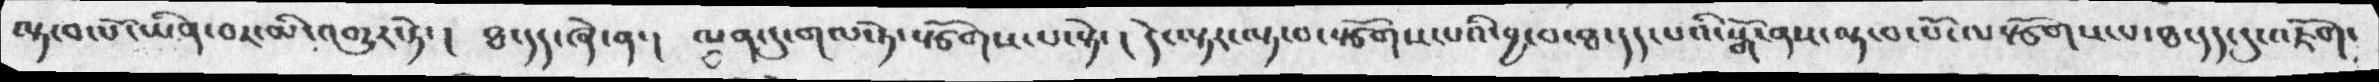ལྟ་བ་པོ་ཡིན་བར་མི་འགྱུར་ཏེ་། ཐ་དད་ཞེ་ན་། ལན་དུ་གལ་ཏེ་སྩོགས་པ་སྟེ་། དེ་ལྟར་ལྟ་བ་སྩོགས་པའི་བྱ་བ་ཐ་དད་པའི་སྒོ་ནས་ལྟ་བ་པོ་ལསྩོགས་པ་ཐ་དད་དུ་འཇོག་
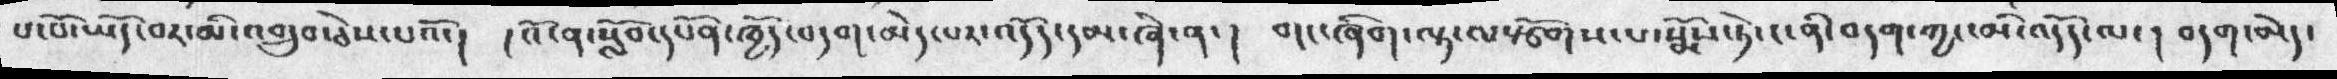པ་བོཡོད་བར་མི་འགྲུབ་ཅེས་པའོ་།  །འོ་ན་སློབ་དཔོན་ཁྱོད་བདག་མེད་པར་འདོད་དམ་ཞེ་ན་།  གང་ཞིག་ལྟ་ལསྩོགས་པ་སྨོས་ཏེ་ང་ནི་བདག་ཀྱང་མི་འདོད་ལ་། བདག་མེད་
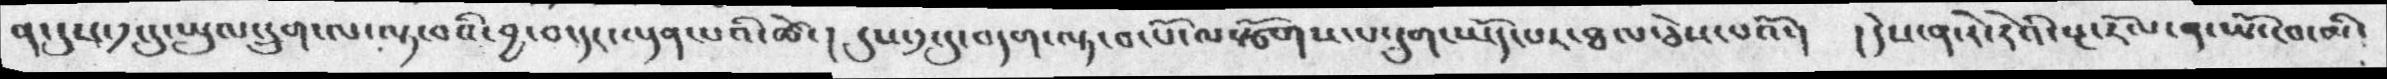ན་དུས་༡་དུ་ཡུལ་དྲུག་ལ་ལྟ་བའི་བྱ་བ་དང་ལྡན་པའི་ཚེ་།  དུས་༡་དུ་བདག་ལྟ་བ་པོ་ལསྩོགས་པ་དྲུག་ཡོད་པར་ཐལ་ཅེས་པའོ་།  །དེས་ན་རེ་རེའི་སྔ་རོལ་ན་ཡོང་བ་མི་
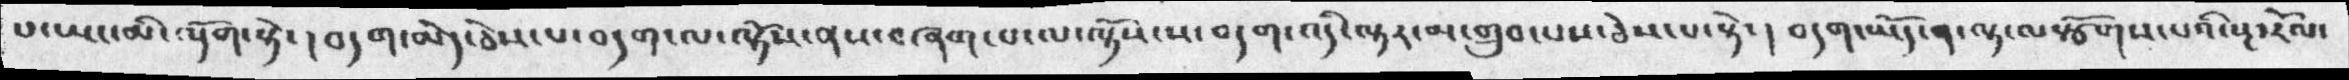པ་ཡང་མི་ལྡོག་སྟེ་། བདག་མེད་ཅེས་པ་བདག་ལ་ལྟོས་ནས་བཞག་པ་ལ་ལྟོས་ས་བདག་འདི་ལྟར་མ་གྲུབ་པས་ཅེས་པ་སྟེ་། བདག་ཡོད་ན་ལྟ་ལསྩོགས་པའི་སྔ་རོལ་
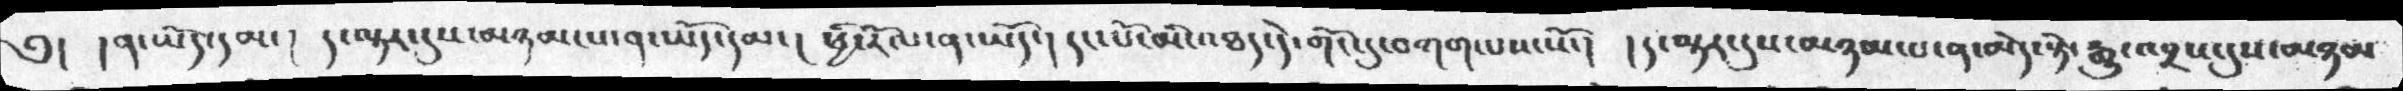༅། །ན་ཡོད་དམ་། ད་ལྟར་དུས་མཉམ་པ་ན་ཡོད་དམ་། ཕྱི་རོལ་ན་ཡོད་། དང་པོ་མི་འཐད་དེ་གོང་དུ་བཀག་པས་སོ་། །ད་ལྟར་དུས་མཉམ་པ་ན་མེད་སྟེ་རྒྱུ་འབྲས་དུས་མཉམ
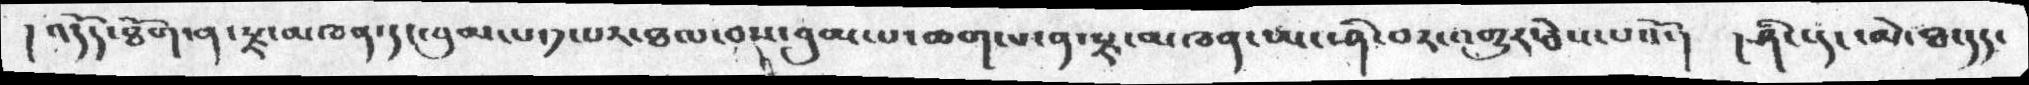།འདོད་ཐོག་ན་རྫ་མཁན་དང་བུམ་པ་༡་པར་ཐལ་བས་བུམ་པ་ཆག་པ་ན་རྫ་མཁན་ཡང་ཤི་བར་འགྱུར་ཅེས་པའོ་།  །ཤིང་དང་མེ་ཐ་དད་
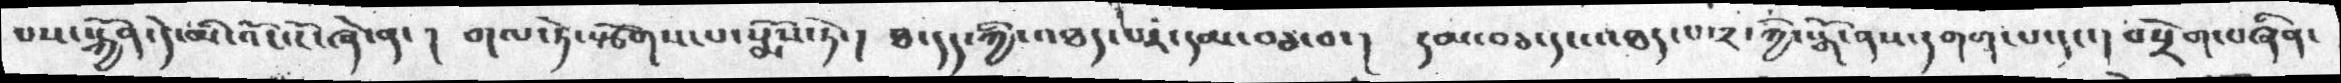པས་སྐྱོན་དེ་མི་འོང་ངོ་ཞེ་ན་།  གལ་ཏེ་སྩོགས་པ་སྨོས་ཏེ་།  ཐ་དད་ཀྱི་འཐད་པར་དམ་བཅ་བ་།  དམ་བཅ་དང་འཐད་པ་༢་ཀྱི་སྒོ་ནས་དགག་པ་དང་། བསྲེག་བཞིན་
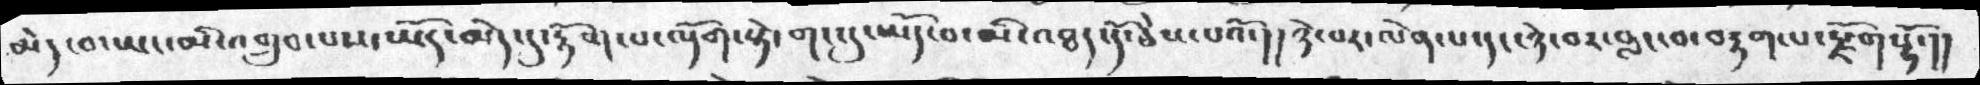མེད་བ་ཡང་མི་འགྲུབ་པས་ཡོད་མེད་དུ་རྟོག་པ་ལྡོག་སྟེ་གང་དུ་ཡོད་བ་མི་འཐད་དོ་ཅེས་པའོ་། །ཉེ་བར་ལེན་པ་དང་ཉེ་བར་བླང་བ་བརྟག་པ་རྫོགསྷོ་།།
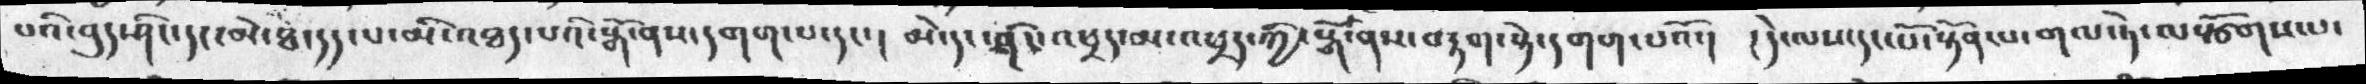པའི་བུད་ཤིང་དང་མེ་ཐ་དད་པ་མི་འཐད་པའི་སྒོ་ནས་དགག་པ་དང་།  མེ་དང་ཤིང་འཕྲད་མ་འཕྲད་ཀྱི་སྒོ་ནས་བརྟག་སྟེ་དགག་པའོ་།  །དེ་ལས་དང་པོ་སྟོན་པ་གལ་ཏེ་ལསྩོགས་པ་
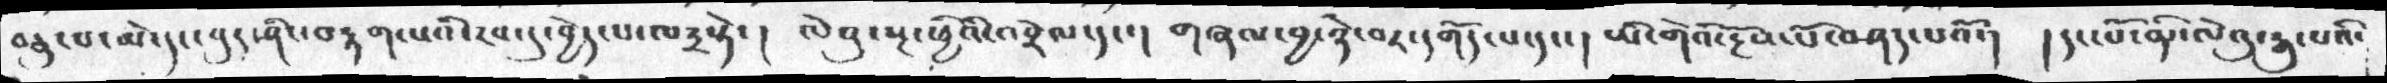བཅུ་པ་མེ་དང་བུད་ཤིང་བརྟག་པའི་རབ་དུ་བྱེད་པ་ལ༣སྟེ་།  ལེའུ་སྔ་ཕྱིའི་འབྲེལ་དང་།  གཞལ་བྱ་ཉེ་བར་དགོས་པ་དང་། ཡི་གེའི་རྔོས་པོ་བཤད་པའོ་།  །དང་པོ་ནི་ལེའུ་རྒུ་པའི་
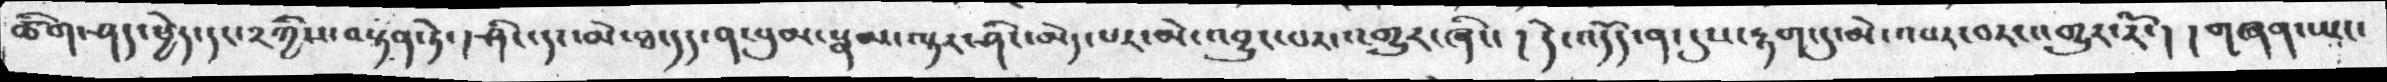ཚིག་ཤད་ཕྱེད་དང་༢ཀྱིས་བསྟན་ཏེ་། ཤིང་དང་མེ་ཐ་དད་ན་བུམ་སྣམ་ལྟར་ཤིང་མེད་པར་མེ་འབྱུང་བར་འགྱུར་ཞིང་།  དེ་འདོད་ན་དུས་རྟག་དུ་མེ་འབར་བར་འགྱུར་རོ་།  །གཞན་ཡང་
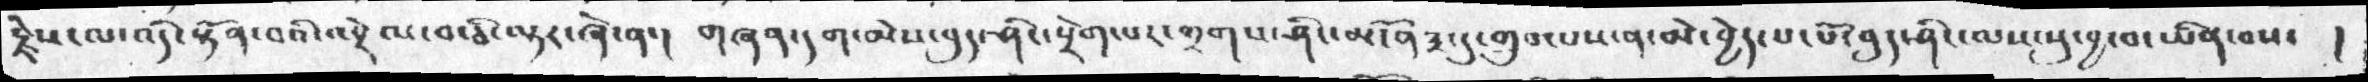རྗེས་ལ་འདི་སྟོན་བའི་འབྲེལ་བ་ཅི་ལྟར་ཞེ་ན་།  གཞན་དག་མེས་བུད་ཤིང་སྲེག་པར་གྲགས་ཤིང་མངོན༣་དུ་གྲུབ་པས་ན་མེ་བྱེད་པ་པོ་བུད་ཤིང་ལས་སུ་བྱ་བ་ཡིན་བས་ །
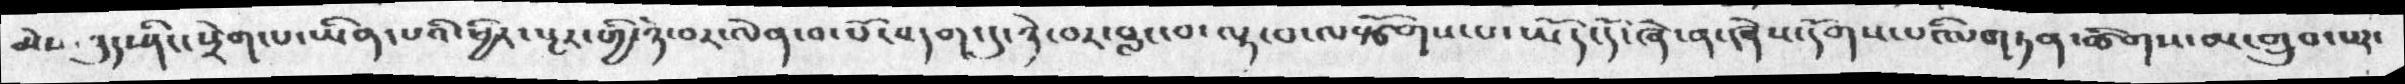མེས་བུད་ཤིང་སྲེག་པ་ཡིན་པའི་ཕྱིར་སྔར་གྱི་ཉེ་བར་ལེན་བ་པོ་བདག་དུ་ཉེ་བར་བླང་བ་ལྟ་བ་ལསྩོགས་པ་ཡོད་དོ་ཞེས་དོགས་པའི་གཏན་ཚིགས་མ་གྲུབ་པར་
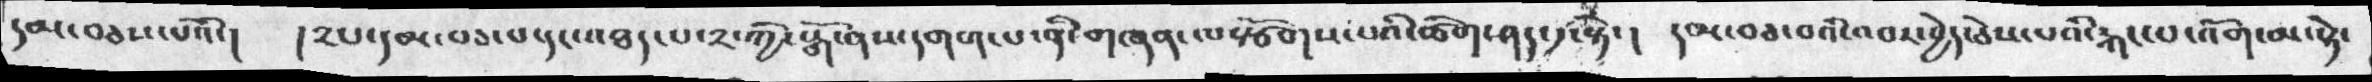དམ་བཅས་པའོ་།  །༢པ་དམ་བཅ་པ་དང་འཐད་པ་༢་ཀྱི་སྒོ་ནས་དགག་པ་ནི་གཞན་ལཙོགས་པའི་ཚིག་ཤད་༡་སྟེ་། དམ་བཅ་བའི་འབར་བྱེད་ཅེས་པའི་རྐང་པ་འོག་མ་སྟེ་
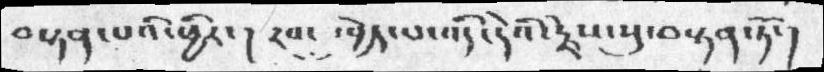བསྟན་པའི་ཕྱིར་། རབ་དུ་བྱེད་པ་འདི་དེའི་རྗེས་སུ་བསྟན་ཏོ་།
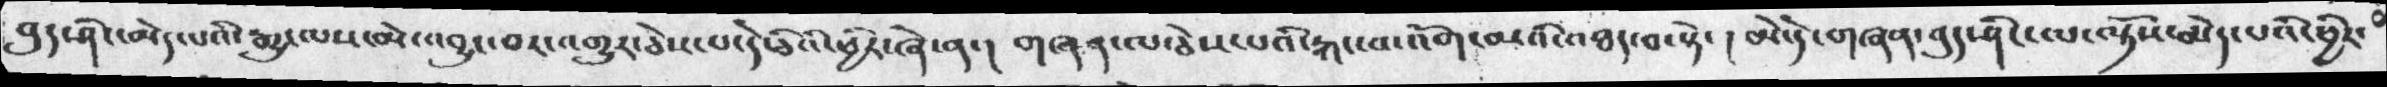བུད་ཤིང་མེད་པའི་རྒྱུ་ལས་མེ་འབྱུང་བར་འགྱུར་ཅེས་པ་དེ་ཅིའི་ཕྱིར་ཞེ་ན་།  གཞན་ལ་ཅེས་པའི་རྐང་བ་འོག་མའི་འཐད་བ་སྟེ་། མེ་དེ་གཞན་བུད་ཤིང་ལ་ལྟོས་མེད་པའི་ཕྱིར་
